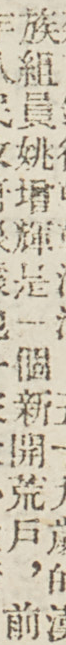族組員姚增輝是一個新開荒戶，前
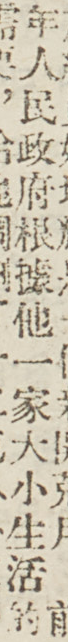年人民政府根據他一家大小生活的
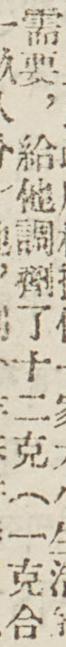需要，給他調劑了十二克（一克合
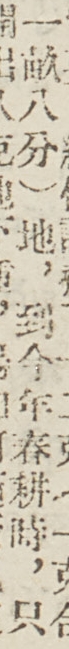一畝八分）地，到今年春耕時，只
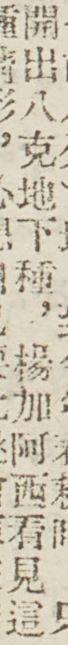開出八克地下種，楊加阿西看見這
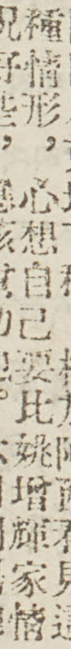種情形，心想自己要比姚增輝家情
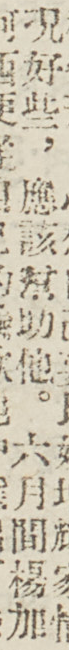況好些，應該幫助他。六月間楊加
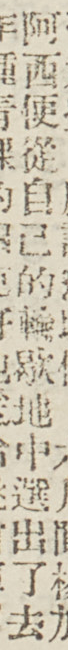阿西便從自己的輪歇地中選出了去
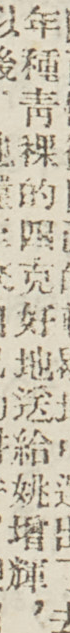年種靑稞的四克好地送給姚增輝，
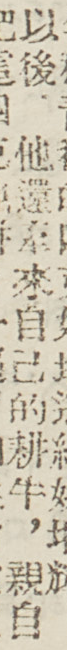以後，他還牽來自己的耕牛，親自
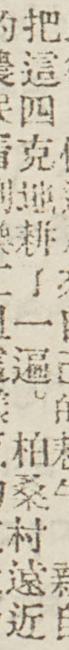把這四克地耕了一遍。柏桑村遠近
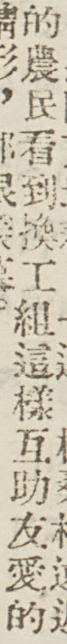的農民看到換工組這樣互助友愛的
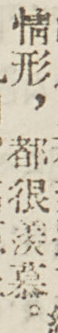情形，都很羨慕。
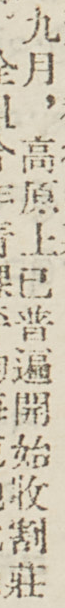九月，高原上已普遍開始收割莊
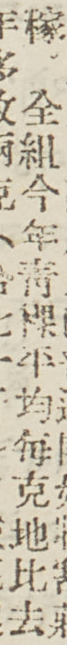稼，全組今年靑稞平均每克地比去
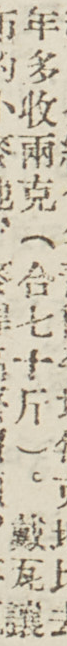年多收兩克（合七十斤）。戴瓦讓
